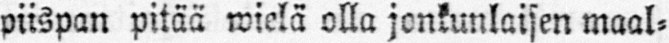piispan pitää wielä olla jonkunlaisen maal-
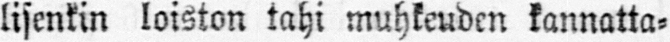lisenkin loiston tahi muhkeuden kannatta-
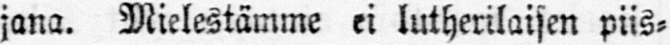jana. Mielestämme ei lutherilaisen piis-
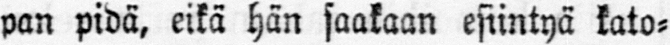pan pidä, eikä hän saakaan esiintyä kato-
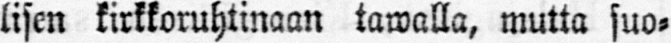lisen kirkkoruhtinaan tawalla, mutta suo-
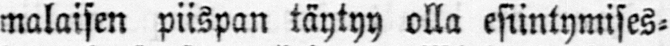malaisen piispan täytyy olla esiintymises-
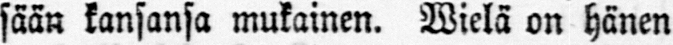sään kansansa mukainen. Wielä on hänen
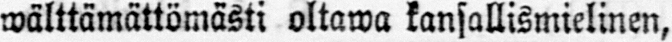wälttämättömästi oltawa kansallismielinen,
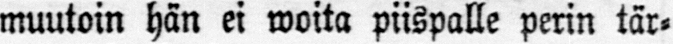muutoin hän ei woita piispalle perin tär-
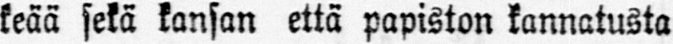keää sekä kansan että papiston kannatusta
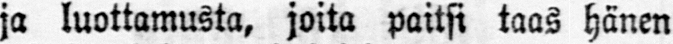ja luottamusta, joita paitsi taas hänen
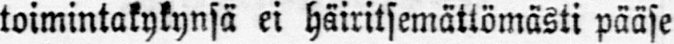toimintakykynsä ei häiritsemättömästi pääse
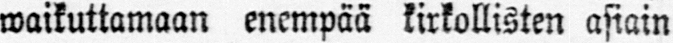waikuttamaan enempää kirkollisten asiain
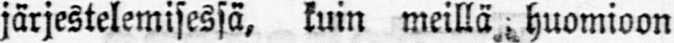järjestelemisessä, kuin meillä huomioon
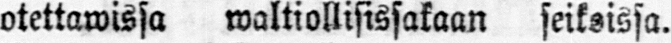otettawissa waltiollisissakaan seikoissa.
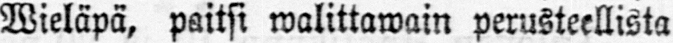Wieläpä, paitsi wälittäwäin perusteellista
